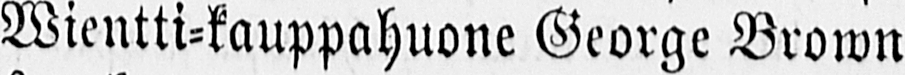Wientti-kauppahuone George Brown
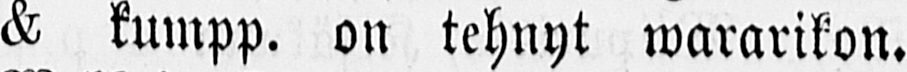& kumpp. on tehnyt wararikon.
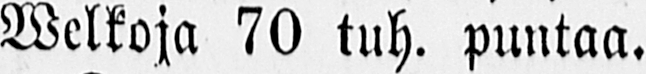Welkoja 70 tuh. puntaa.
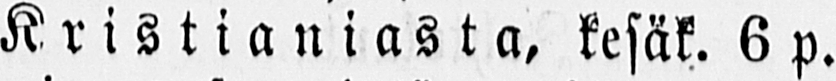Kristianiasta, kesäk. 6 p.
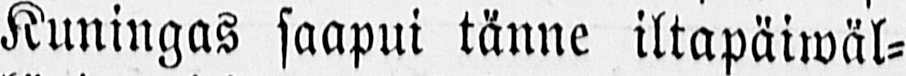Kuningas saapui tänne iltapäiwäl-
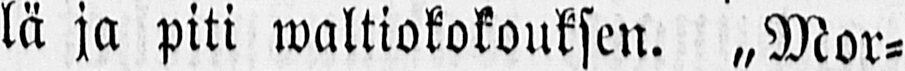lä ja piti waltiokokouksen. „Mor-
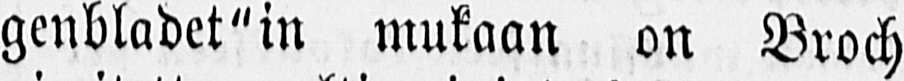genbladet"in mukaan on Broch
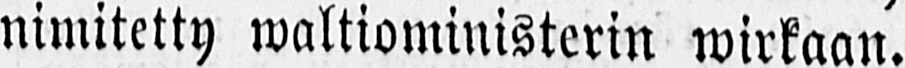nimitetty waltioministerin wirkaan.
